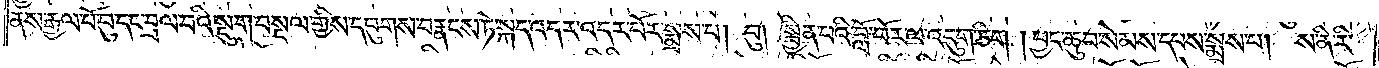ནས་རྒྱལ་པོ་བུ་དང་བྲལ་བའི་སྡུག་བསྔལ་གྱིས་དབུགས་བརྣངས་ཏེ་སྐད་འདར་འདར་པོར་སྨྲས་པ། བུ། སྦྱིན་པའི་བློ་བོར་ལ་འདུག་ཅིག །བྱང་ཆུབ་སེམས་དཔས་སྨྲས་པ། ས་ནི་རི་
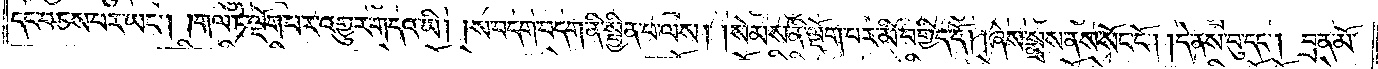དང་བཅས་པར་ཡང༌། །གལ་ཏེ་ལྡོག་པར་འགྱུར་གདའ་ཡི། །ས་བདག་བདག་ནི་སྦྱིན་པ་ལས། །སེམས་ནི་ལྡོག་པར་མི་བགྱིད་དོ། །ཞེས་སྨྲས་ནས་སོང་ངོ༌། །དེ་ནས་བུ་དང༌། བྲན་མོ་
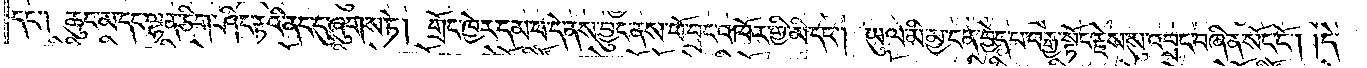དང༌། ཆུང་མ་དང་ལྷན་ཅིག་ཤིང་རྟའི་ནང་དུ་ཞུགས་ཏེ། གྲོང་ཁྱེར་དམ་པ་དེ་ནས་བྱུང་ནས་ཕོ་བྲང་འཁོར་གྱི་མི་དང༌། ཡུལ་མི་མྱ་ངན་བྱེད་པ་བརྒྱ་སྟོང་རྗེས་སུ་འབྲང་བཞིན་སོང་ངོ༌། །དེ་
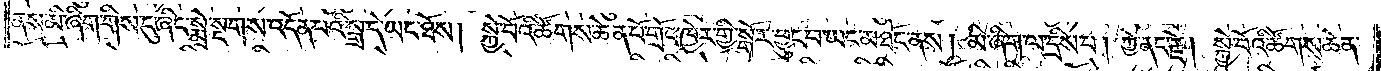ནས་མི་ཞིག་གིས་དུ་ཞིང་སྨྲེ་སྔགས་འདོན་པའི་སྒྲ་དེ་ཡང་ཐོས། སྐྱེ་བོའི་ཚོགས་ཆེན་པོ་གྲོང་ཁྱེར་གྱི་སྒོར་བྱུང་བ་ཡང་མཐོང་ནས། མི་ཞིག་ལ་དྲིས་པ། ཀྱེ་ནང་རྗེ། སྐྱེ་བོའི་ཚོགས་ཆེན་
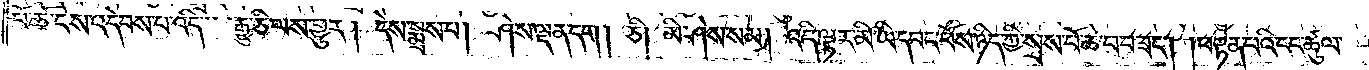པོ་ཆོ་ངེས་འདེབས་པ་འདི་རྒྱུ་ཅི་ལས་གྱུར། དེས་སྨྲས་པ། ཤེས་ལྡན་དག། ཅི། མི་ཤེས་སམ། འདི་ལྟར་མི་ཡི་དབང་པོས་ཉིད་ཀྱི་སྲས་པོ་ཆེ་བ་བཟང༌། །བརྟན་པའི་ངང་ཚུལ་
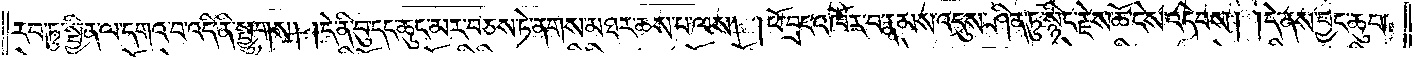རབ་ཏུ་སྦྱིན་ལ་དགའ་བ་འདི་ནི་སྤྱུགས། །དེ་ནི་བུ་དང་ཆུང་མར་བཅས་ཏེ་ནགས་མཐར་ཆགས་པ་ལས། །ཕོ་བྲང་འཁོར་བ་རྣམས་འདུས་ཤིན་ཏུ་སྙིང་རྗེས་ཆོ་ངེས་འདེབས། །དེ་ནས་བྱང་ཆུབ་
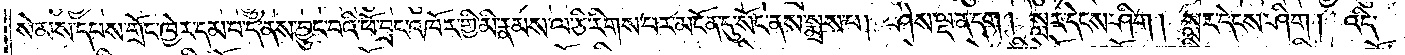སེམས་དཔས་གྲོང་ཁྱེར་དམ་པ་དེ་ནས་བྱུང་བའི་ཕོ་བྲང་འཁོར་གྱི་མི་རྣམས་ལ་ཅི་རིགས་པར་མངོན་དུ་སོང་ནས་སྨྲས་པ། ཤེས་ལྡན་དག། སླར་དེངས་ཤིག། སླར་དེངས་ཤིག། འདི་
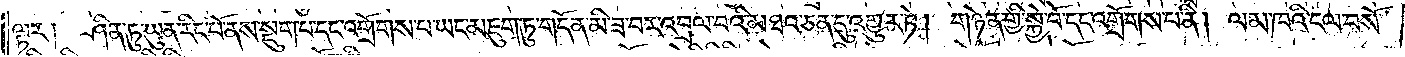ལྟར། ཤིན་ཏུ་ཡུན་རིང་པོ་ནས་སྡུག་པ་དང་འགྲོགས་པ་ཡང་མཇུག་ཏུ་གདོན་མི་ཟ་བར་འབྲལ་བའི་མཐའ་ཅན་དུ་འགྱུར་ཏེ། གཉེན་གྱི་སྐྱེ་བོ་དང་འགྲོགས་པ་ནི། ལམ་ཁའི་ངལ་བསོ་
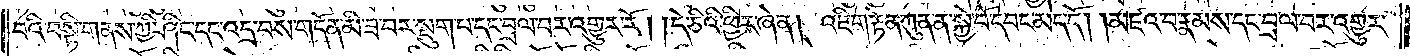བའི་བསྟི་གནས་ཀྱི་ཤིང་དང་འདྲ་བས་གདོན་མི་ཟ་བར་སྡུག་པ་དང་བྲལ་བར་འགྱུར་རོ། །དེ་ཅིའི་ཕྱིར་ཞེ་ན། འཇིག་རྟེན་ཀུན་ན་སྐྱེ་བོ་དབང་མེད་དོ། །མཛའ་བ་རྣམས་དང་བྲལ་བར་འགྱུར་
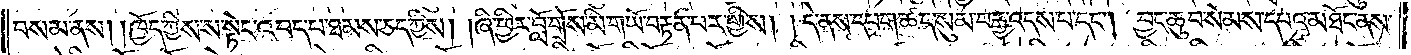བསམ་ནས། །ཁྱོད་ཀྱིས་ས་སྟེང་འབད་པ་ཐམས་ཅད་ཀྱིས། །ཞི་ཕྱིར་བློ་གྲོས་མི་གཡོ་བརྟན་པར་གྱིས། །དེ་ནས་དཔག་ཚད་སུམ་བརྒྱ་འདས་པ་དང༌། བྱང་ཆུབ་སེམས་དཔའ་མཐོང་ནས་
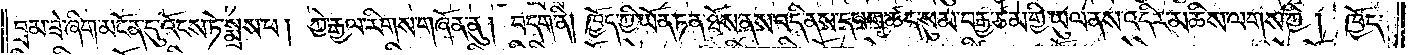བྲམ་ཟེ་ཞིག་མངོན་དུ་འོངས་ཏེ་སྨྲས་པ། ཀྱེ་རྒྱལ་རིགས་གཞོན་ནུ། བདག་ནི། ཁྱོད་ཀྱི་ཡོན་ཏན་ཐོས་ནས་འདི་ནས་དཔག་ཚད་སུམ་བརྒྱ་ཙམ་གྱི་ཡུལ་ནས་འདིར་མཆིས་ལགས་ཀྱི། ཁྱོད་
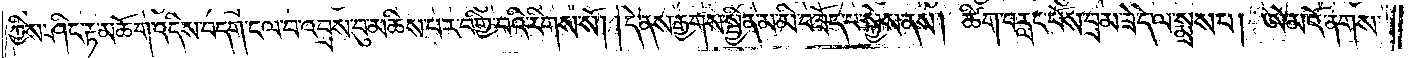ཀྱིས་ཤིང་རྟ་མཆོག་འདིས་བདག་ངལ་བ་འབྲས་བུ་མཆིས་པར་བགྱི་བའི་རིགས་སོ། །དེ་ནས་རྒྱགས་སྦྱིན་མ་མི་བཟོད་པ་སྐྱེས་ནས། ཚིག་བརླང་པོས་བྲམ་ཟེ་དེ་ལ་སྨྲས་པ། ཨེ་མའོ་ནགས་
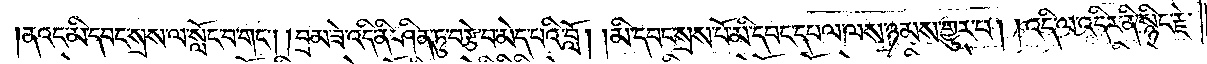།ནའང་མི་དབང་སྲས་ལ་སློང་བ་གང༌། །བྲམ་ཟེ་འདི་ནི་ཤིན་ཏུ་བརྩེ་བ་མེད་པའི་བློ། །མི་དབང་སྲས་པོ་མི་དབང་དཔལ་ལས་ཉམས་གྱུར་པ། །འདི་ལ་འདིར་ནི་སྙིང་རྗེ་
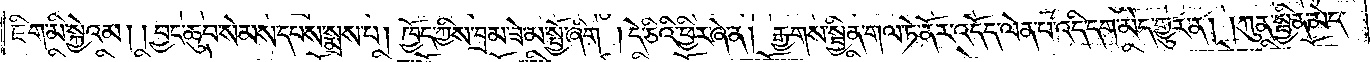ཇིག་མི་སྐྱེའམ། །བྱང་ཆུབ་སེམས་དཔས་སྨྲས་པ། ཁྱོད་ཀྱིས་བྲམ་ཟེ་མ་སྤྱོ་ཞིག །དེ་ཅིའི་ཕྱིར་ཞེ་ན། རྒྱགས་སྦྱིན་གལ་ཏེ་ནོར་འདོད་ལེན་པ་འདི་དག་མེད་གྱུར་ན། །ཀུན་སྦྱིན་མེད་
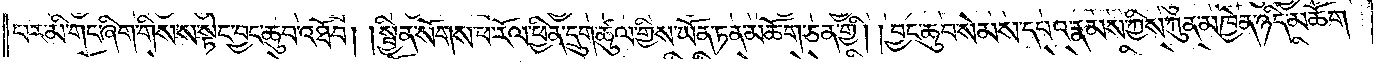པར་མི་གང་ཞིག་གིས་ས་སྟེང་བྱང་ཆུབ་འཐོབ། །སྦྱིན་སོགས་ཕ་རོལ་ཕྱིན་དྲུག་ཚུལ་གྱིས་ཡོན་ཏན་མཆོག་ཅན་གྱི། །བྱང་ཆུབ་སེམས་དཔའ་རྣམས་ཀྱིས་ཀུན་མཁྱེན་ཉིད་མཆོག་
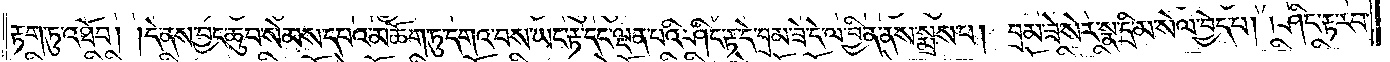རྟག་ཏུ་འཐོབ། །དེ་ནས་བྱང་ཆུབ་སེམས་དཔའ་མཆོག་ཏུ་དགའ་བས་ཡང་རྟ་དང་ལྡན་པའི་ཤིང་རྟ་དེ་བྲམ་ཟེ་དེ་ལ་བྱིན་ནས་སྨྲས་པ། བྲམ་ཟེ་སེར་སྣ་དྲི་མ་སེལ་བྱེད་པ། །ཤིང་རྟ་རབ་
